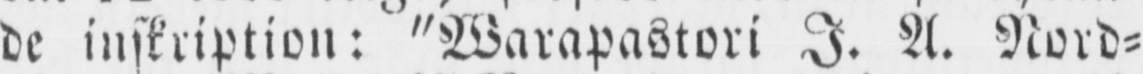de inskription: "Warapastori I. A. Nord-
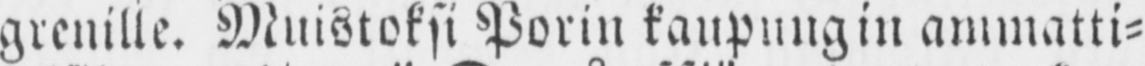grenille. Muistoksi Porin kaupungin ammatti-
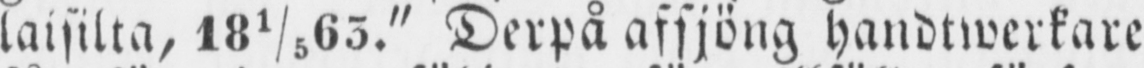laisilta, Derpå afsjöng handtwerkare
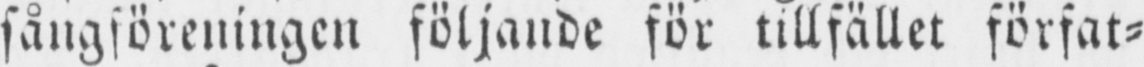sångföreningen följande för tillfället förfat-
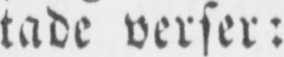tade verser:
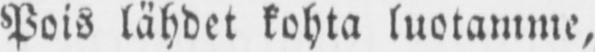Pois lähdet kohta luotamme,
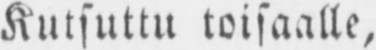Kutsuttu toisaalle,
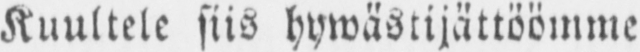Kuultele siis hywästijättöömme
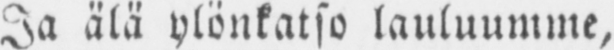Ja älä ylönkatso lauluumme,
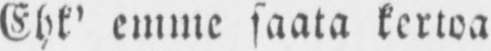Ehk' emme saata kertoa
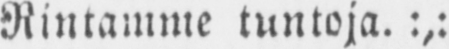Rintamme tuntoja. :,:
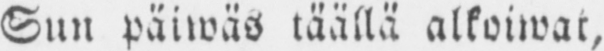Sun päiwäs täällä alkoiwat,
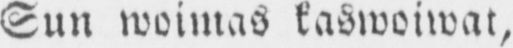Sun woimas kaswoiwat,
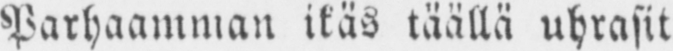Parhaamman ikäs täällä uhrasit
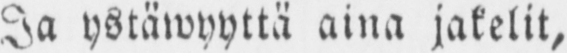Ja ystäwyyttä aina jakelit,
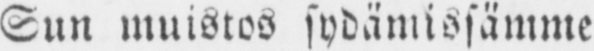Sun muistos sydämissämme
